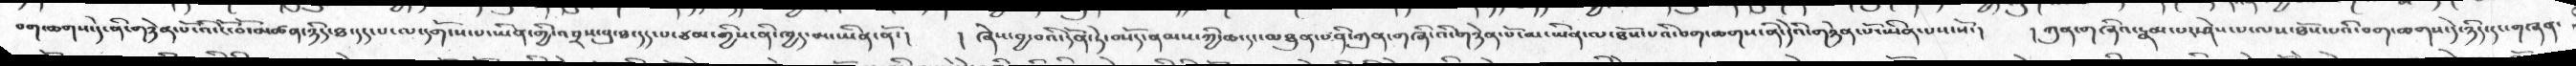བག་ཆགས་དེ་ནི་གཉེན་པོ་འི་ངོ་བོ་མཚན་ཉིད་ཐ་དད་པ་ལ་དགོངས་པ་ཡིན་གྱི་འབྲས་བུ་ཐ་དད་པ་ཙམ་གྱིས་ནི་ཁྱད་མ་ཡིན་ནོ་།   ། ཞེས་བྱ་པའི་དོན་ཏེ་བསོད་ནམས་ཀྱི་ཆ་དང་མཐུན་པ་ནི་ཀུན་གཞི་འི་གཉེན་པོ་མ་ཡིན་ལ་ཐོས་པའི་བག་ཆགས་ནི་དེའི་གཉེན་པོ་ཡིན་པས་སོ་།  །ཀུན་གཞིའ་རྣམ་པར་ཤེས་པ་ལས་ཐོས་པའི་བག་ཆགས་དེ་ཉིད་དང་གཞན་
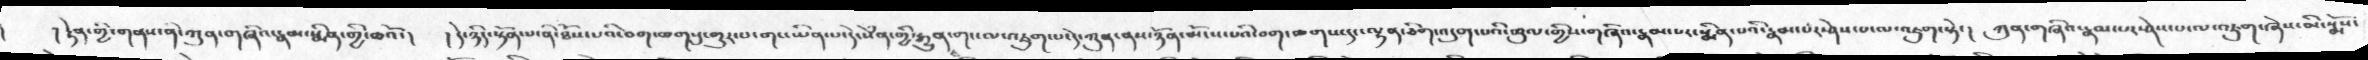།   ། རྟེན་གྱི་གནས་ནི་ཀུན་གཞིའ་རྣམ་སྨིན་གྱི་ཆའོ་།   །དེ་ཉིད་སྟོན་པ་ནི་ཐོས་པའི་བག་ཆགསུ་གྱུར་པ་གང་ཡིན་པ་དེ་སེཾན་གྱི་རྒྱུན་གང་ལ་འཇུག་པ་དེ་ཀུན་ནས་ཉོན་མོངས་པའི་བག་ཆགས་དང་ལྷན་ཅིག་འདུག་པའི་ཚུལ་གྱིས་གཞིའ་རྣམ་པར་སྨིན་པའི་རྣམ་པར་ཤེས་པ་ལ་འཇུག་སྟེ་།   ཀུན་གཞིའ་རྣམ་པར་ཤེས་པ་ལ་འཇུག་ཞེས་མི་སྨོས་
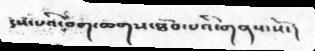དས་པའི་བག་ཆགས་ཐོབ་པའི་གནས་སོ་།
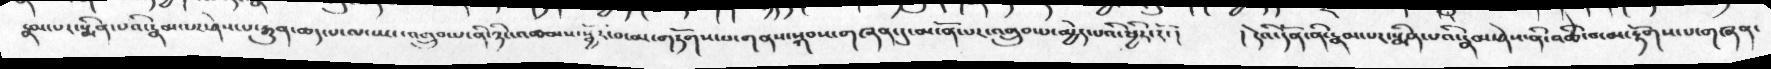རྣམ་པར་སྨིན་པའི་རྣམ་པར་ཤེས་པ་རྒྱུན་ཆད་པ་ལ་ཡང་འགྲུབ་པ་ནི་ཉིང་འཚམས་སྦྱོར་བ་མ་གཏོགས་པ་གནས་སྐབས་གཞན་དུ་མངོན་པར་འགྲུབ་པ་མྱེད་པའི་ཕྱིར་རོ་།   ། དེའི་དོན་ནི་རྣམ་པར་སྨིན་པའི་རྣམ་ཤེས་ནི་འཆི་བ་མ་རྟོགས་པ་གཞན་
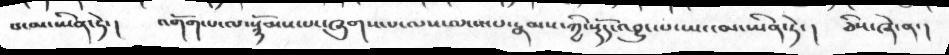པ་མ་ཡིན་ཏེ་།    འགོག་པ་ལ་སྙོམས་པར་ཞུགས་པ་ལས་ལངས་པ་རྣམས་ཀྱི་སྟོད་འབྱུང་པ་ཡང་མ་ཡིན་ཏེ་།   ཅིས་ཞེ་ན་།
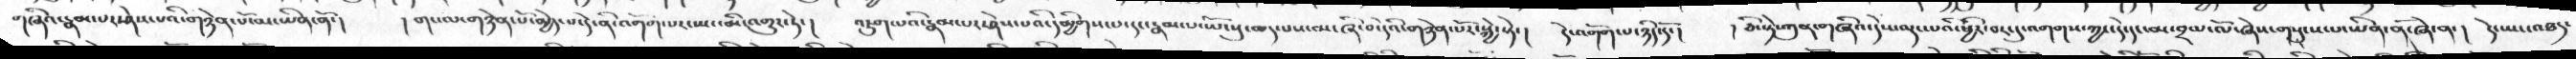གཞིའ་རྣམ་པར་ཤེས་པའི་གཉེན་པོ་མ་ཡིན་ནོ་།   ། གསལ་གཉེན་པོ་མྱེད་པ་དེ་ནི་འགོག་པར་ཡང་མི་འགྱུར་ཏེ་།   འཇུག་པའི་རྣམ་པར་ཤེས་པའི་དམྱིགས་པ་དང་རྣམ་པ་ཡོངསུ་ཆད་པས་མ་ཞི་བ་དེའི་གཉེན་པོར་སྐྱེ་སྟེ་།  དེ་འགོག་པ་ཉིད་དོ་།  ། ཅི་སྟེ་ཀུན་གཞིའ་དེས་ལྡང་པའི་ཕྱིར་བར་དུ་འགགས་ཀྱང་དེ་དང་མ་བྲལ་ལོ་ཞེས་གསུངས་པ་ཡིན་ནོ་ཞེ་ན་།   དེ་ཡང་འཐད་
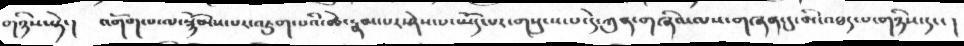གཉིས་སྟེ་།  འགོག་པ་ལ་སྙོམས་པར་འཇུག་པའི་ཚེ་རྣམ་པར་ཤེས་པ་ཡོད་པར་གསུངས་པ་དེ་ཀུན་གཞིའ་ལས་གཞན་དུ་མི་འཐད་པ་གཉིས་དང་།
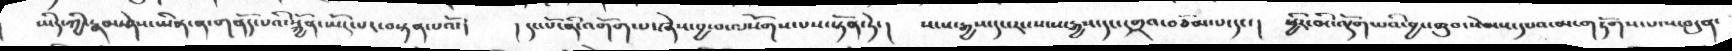ཡིད་ཀྱི་རྣམ་ཤེས་ཡིན་ན་གནོད་པའི་སྐྱོན་ཡོད་པར་བསྟན་པའོ་།  །དང་པོ་ནི་འགོག་པ་ཞེས་བྱ་བ་ལསོགས་པས་སྟོན་ཏེ་།  སངས་རྒྱས་དང་རང་སངས་རྒྱས་དང་དགྲའ་བཅོམ་པ་དང་།  ཕྱིར་མི་ལྡོག་པའི་བྱང་ཆུབ་སེམས་དཔའ་མ་གཏོགས་པ་ས་བདུན་
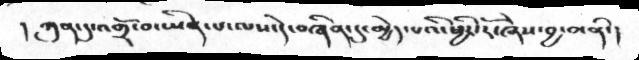། ཀུན་དུ་འགྲོ་བ་ཡིན་པ་ལས་དེ་བཞིན་དུ་མྱེད་པའི་ཕྱིར་རོ་ཞེས་བྱ་བ་ནི་།
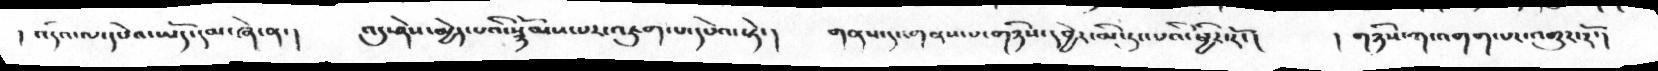།  འདིའ་ལ་དཔེའ་ཡོད་དམ་ཞེ་ན་།  འདུ་ཤེས་མྱེད་པའི་སྙོམས་པར་འཇུག་པ་དཔེའ་སྟེ་།   གནས་དང་གནས་པ་གཉིས་དབྱེར་མི་རུང་པའི་ཕྱིར་རོ་།   ། གཉིས་ཀ་འགག་པར་འགྱུར་རོ་།
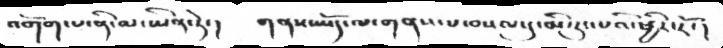འགོག་པ་ནི་མ་ཡིན་ཏེ་།  གནས་ཡོད་ལ་གནས་པ་བསལ་དུ་མི་རུང་པའི་ཕྱིར་རོ་།
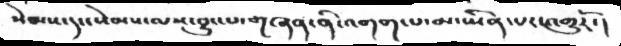སེམས་དང་སེམས་ལས་བྱུང་པ་གཞན་ནི་འགག་པ་མ་ཡིན་པར་འགྱུརོ་།
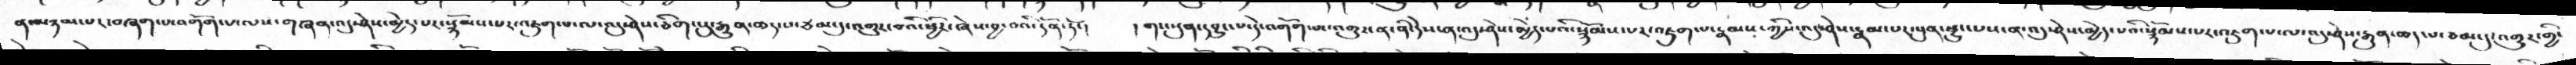ན་མཉམ་པར་བཞག་པ་འགོག་པ་ལས་གཞན་འདུ་ཤེས་མྱེད་པར་སྙོམས་པར་འཇུག་པ་ལ་འདུ་ཤེས་ཅིག་པུ་རྒྱུན་ཆད་པ་ཙམ་དུ་འགྱུར་བའི་ཕྱིར་ཞེས་བྱ་བའི་དོན་ཏོ་།     ། གང་སུན་དབྱུང་པ་དེ་འགོག་པར་འགྱུར་ན་ནི་དེས་ན་འདུ་ཤེས་མྱེད་པའི་སྙོམས་པར་འཇུག་པ་རྣམས་ཀྱིས་འདུ་ཤེས་རྣམ་པར་སུན་ཕྱུང་པས་ན་འདུ་ཤེས་མྱེད་པའི་སྙོམས་པར་འཇུག་པ་ལ་འདུ་ཤེས་རྒྱུན་ཆད་པ་ཙམ་དུ་འགྱུར་གྱི་
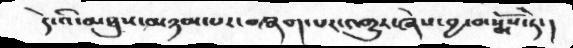དེ་འི་མཐུས་མཉམ་པར་བཞག་པར་འགྱུར་ཞེས་བྱ་བ་སྨོས་ཏེ་།
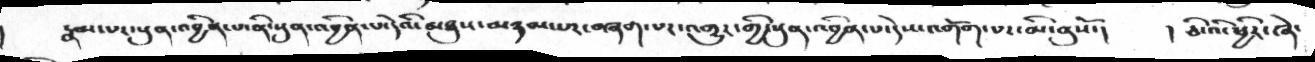།    རྣམ་པར་སུན་འབྱིན་པ་ནི་སུན་འབྱིན་པ་དེའི་མཐུས་མཉམ་པར་བཞག་པར་འགྱུར་གྱི་སུན་འབྱིན་པ་དེས་འགོག་པར་མི་ནུསོ་།   ། ཅི་འི་ཕྱིར་ཞེ་
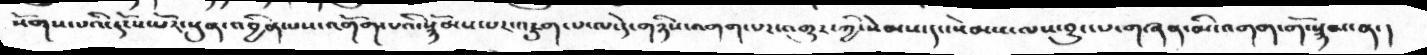སོགས་པའི་དངོས་པོར་སུན་འབྱིན་པས་འགོག་པའི་སྙོམས་པར་འཇུག་པ་ལ་དེ་གཉིས་འགག་པར་འགྱུར་ཀྱི་སེམས་དང་སེམས་ལས་བྱུང་པ་གཞན་མི་འགག་གོ་སྙམ་ན་།
